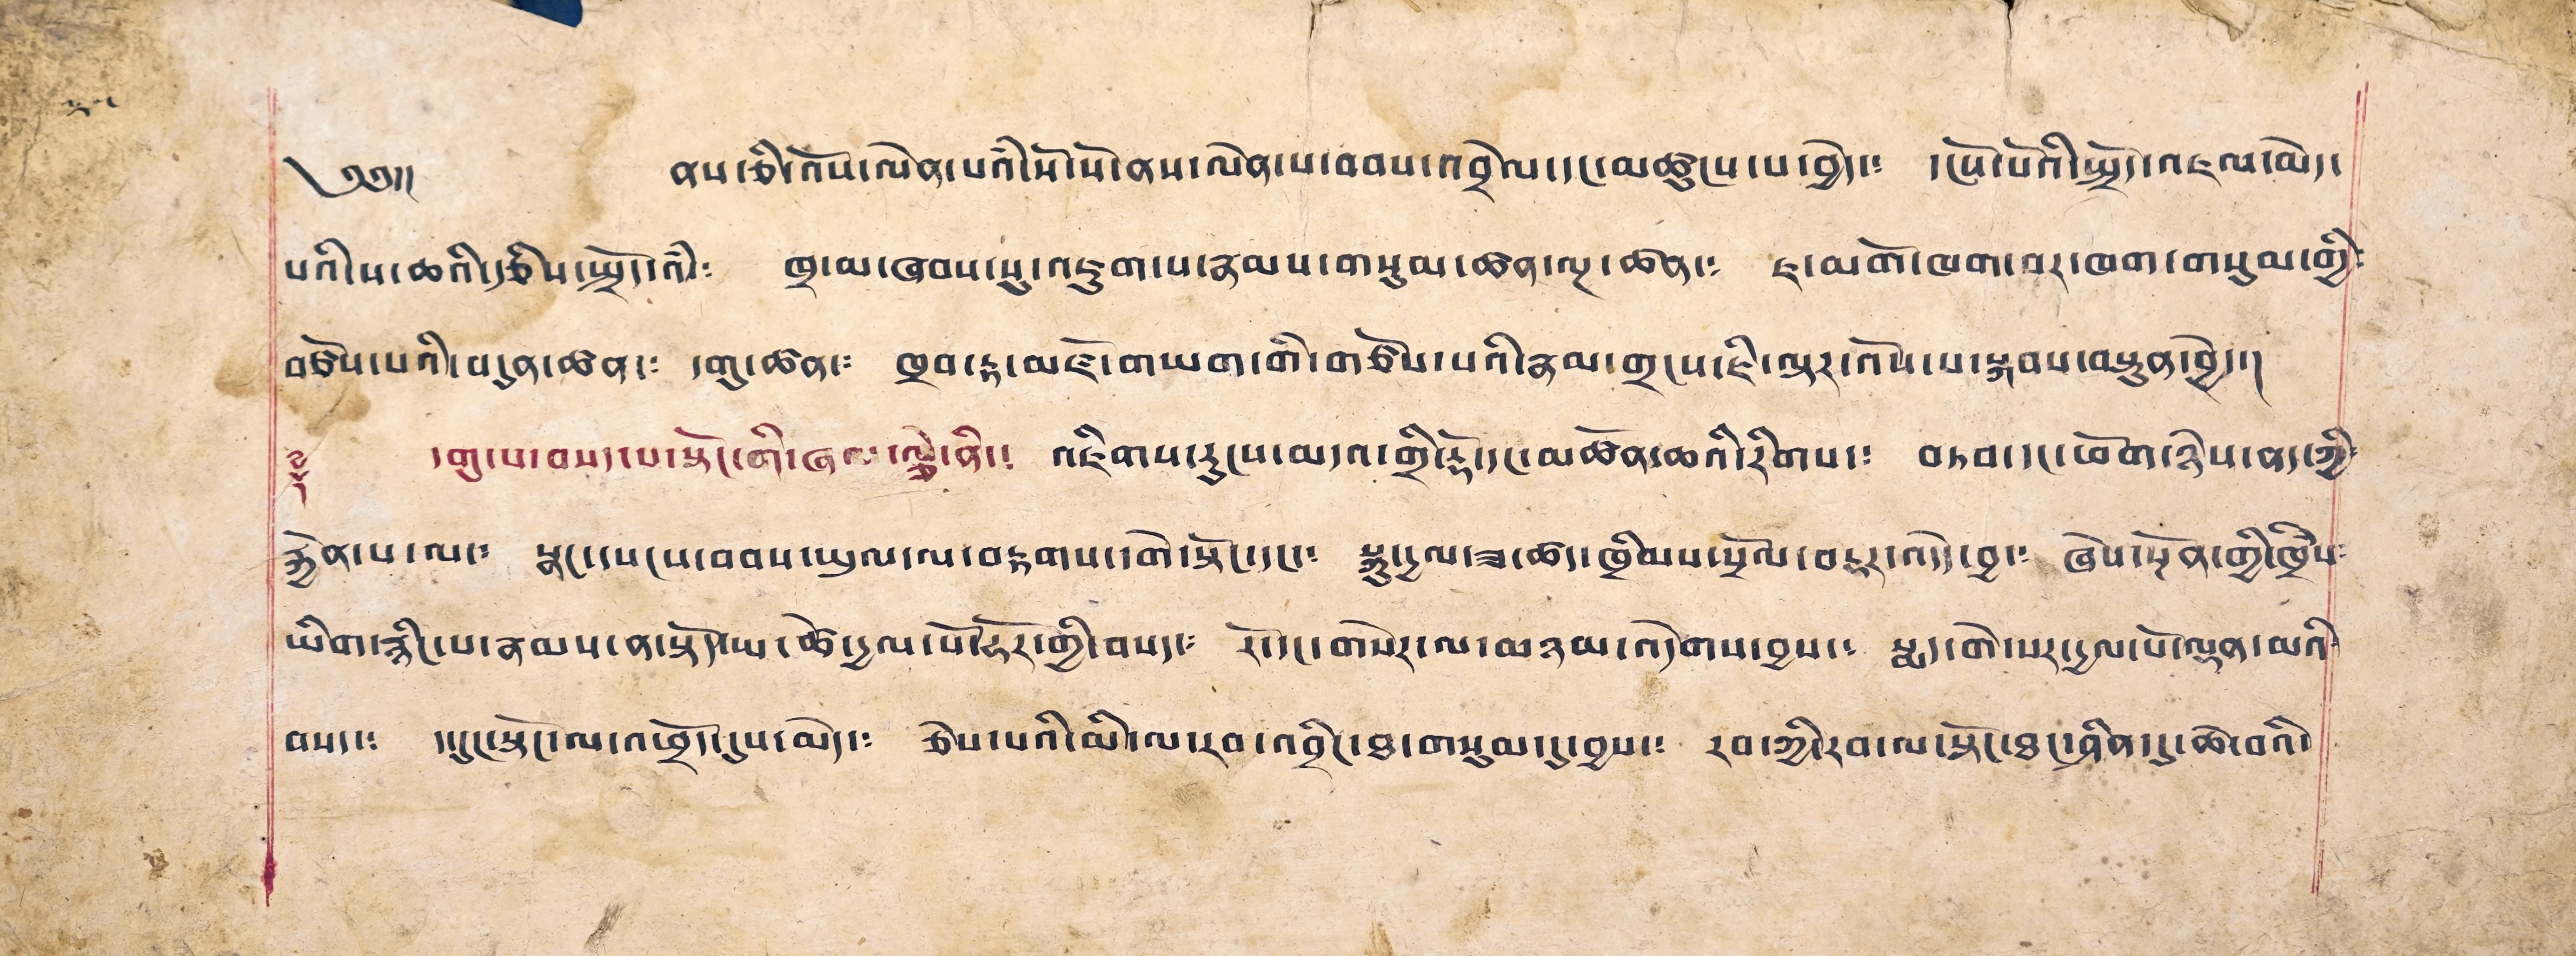༄༅།། ནས་ཅི་འོས་ལེན་པའི་སོ་སོ་ནས་ལེན་པ་བབས་འབྲེལ་དང་མཚངས་པ་བྱེད་༴ དངོས་པོའི་སྤྲོད་འཇལ་མེད་
པའི་ས་ཆའི་རྩིས་སྤྲོད་འཾ་༴ ཁྲ་མ་ཞབས་སུ་འཇུག་པ་རྣམས་གསུམ་ཚན་ལྔ་ཚན་༴ ཇ་མགོ་ཁག་བར་ཁག་གསུམ་གྱི༴
བཙོས་པའི་བདུན་ཚན་༴ དགུ་ཚན་༴ ཁྲབ་རྟ་མཛོ་གཡག་གི་གཙོས་པའི་རྣམ་གྲངས་ཇི་ལྟར་འོས་པ་སྐབས་བསྟུན་བྱེད་༴
༈ དགུ་པ་བསད་པ་སྟོང་གི་ཞལ་ལྕེ་ནི་༴ འཇིགས་རུངས་མདའ་གྲི་རྡོ་དང་མཚོན་ཆའི་རིགས་༴ བཏབ་དང་ཕོག་ཉེས་ནད་ཀྱི༴
རྐྱེན་པ་ལང་། སྣང་དཔངས་བབས་ཡུལ་ལ་བརྟགས་དགེ་སྟོང་དང་། སྐུ་དྱལ་ཟ་ཚད་ཁྱིམས་སྲོལ་བརྡར་འདེད་བྱ་། ཞེས་སྔོན་གྱི་ཁྲིཾས༴
ཡིག་རྙིང་པ་རྣམས་ན་སྟོད་ཡ་ཚེ་དྱལ་པོ་ཧོར་གྱི་བསད་༴ རོ་དང་གསེར་ལ་མཉམ་འདེགས་བྱས་༴ སྨད་གེ་སར་དྱལ་པོ་ལྡན་མའི༴
བསད་༴ ད་དུང་སྡོང་ལ་འཕྲོད་དུས་མེད་༴ ཅེས་པའི་མི་ལ་རབ་འབྲིང་ཐ་གསུམ་དུ་བྱས་༴ རབ་ཀྱི་རབ་ལ་སྟོང་ཐང་ཤིན་ཏུ་ཆེ་བའི་
